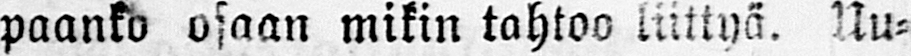paanko osaan mikin tahtoo liittyä. Uu-
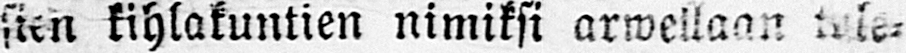sien kihlakuntien nimiksi arwellaan tule-
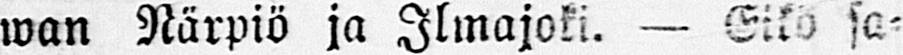wan Närpiö ja Ilmajoki. — Eikö sa-
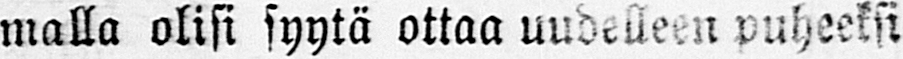malla olisi syytä ottaa uudelleen puheeksi
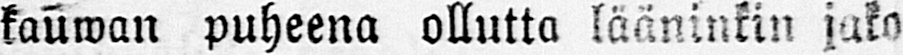kauwan puheena ollutta lääninkin jako
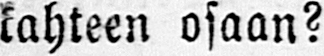kahteen osaan?
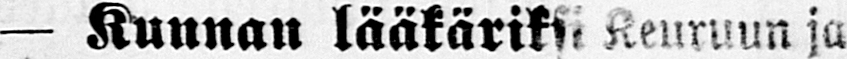— Kunnan lääkäriksi Keuruun ja
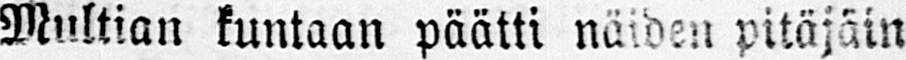Multian kuntaan päätti näiden pitäjäin
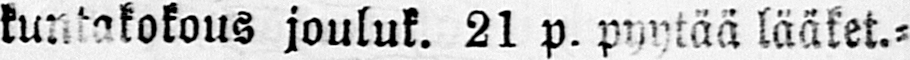kuntakokous jouluk. 21 p. pyytää lääket.-
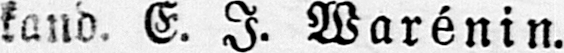kand. E. I. Warénin.
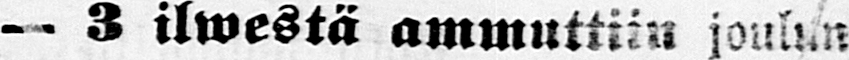— 3 ilwestä ammuttiiu joulun
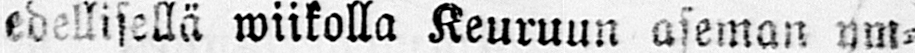edellisellä wiikolla Keuruun aseman ym-
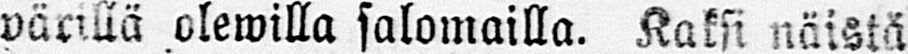pärillä olewilla salomailla. Kaksi näistä
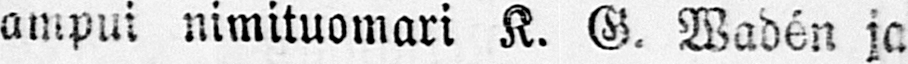ampui nimituomari K. G. Wadé n ja
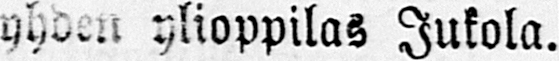yhden ylioppilas Jukola.
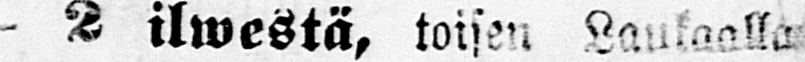- 2 ilwestä, toisen Laukaalla
